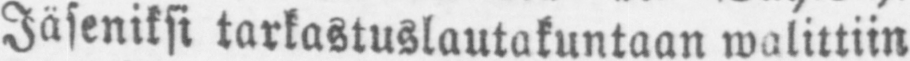Jäseniksi tarkastuslautakuntaan walittiin
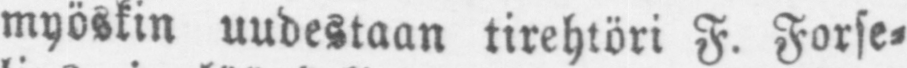myöskin uudestaan tirehröri F. Forse-
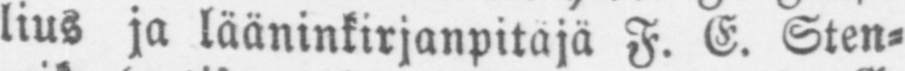lius ja lääninkirjanpitäjä F. E. Sten-
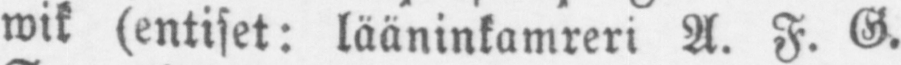wik (entiset: lääninkamreri A. F. G.
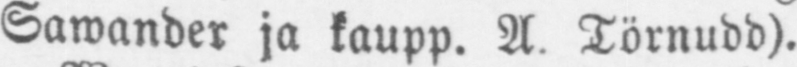Sawander ja kaupp. A. Törnudd).
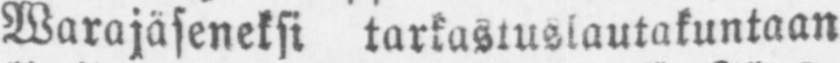Warajäseneksi tarkastuslautakuntaan
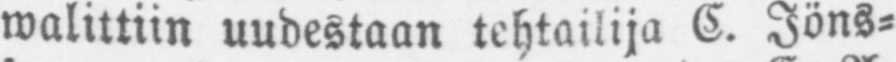walittiin uudestaan tehtailija C. Jöns-
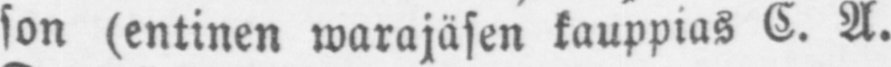son (entinen warajäsen kauppias C. A.
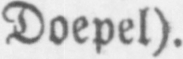Doepel).
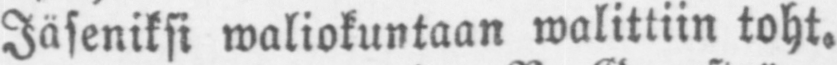Jäseniksi waliokuntaan walittiin toht.
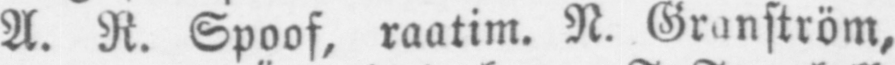A. R. Spoof, raatim. N. Granström,
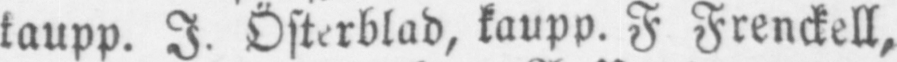taupp. I. Österblad, kaupp. F Frenckell,
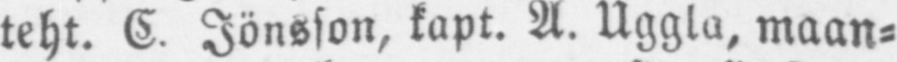teht. C. Jönsson, kapt. A. Uggla, maan-
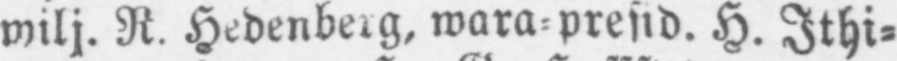wilj. R. Hedenberg, wara-presid. H. Ithi-
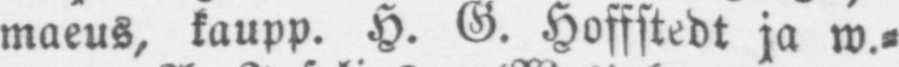maeus, kaupp. H. G. Hoffstedt ja w.-
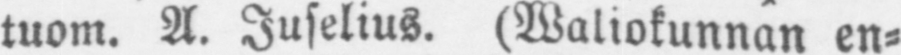tuom. A. Juselius. (Waliokunnan en-
